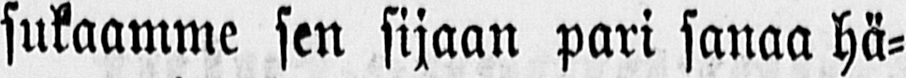sukaamme sen sijaan pari sanaa hä-
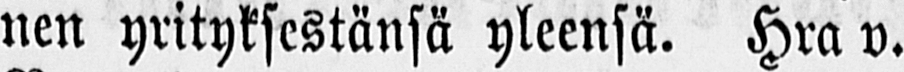nen yrityksestänsä yleensä. Hra v.
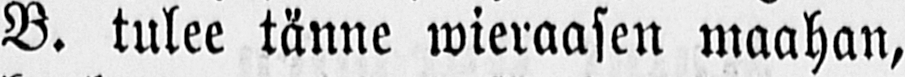B. tulee tänne wieraasen maahan,
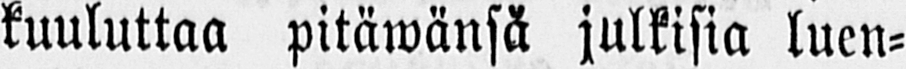kuuluttaa pitäwänsä julkisia luen-
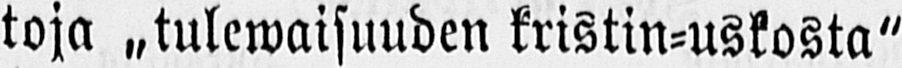toja „tulewaisuuden kristin-uskosta"
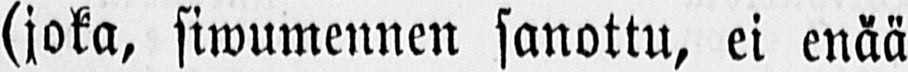(joka, siwumennen sanottu, ei enää
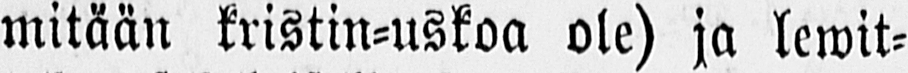mitään kristin-uskoa ole) ja lewit-
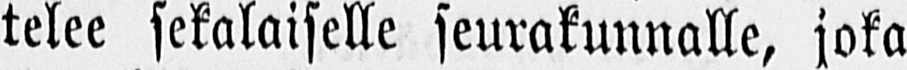telee sekalaiselle seurakunnalle, joka
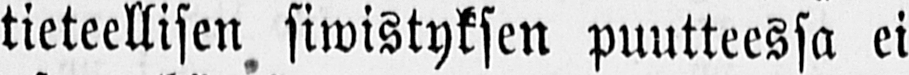tieteellisen, siwistyksen puutteessa ei
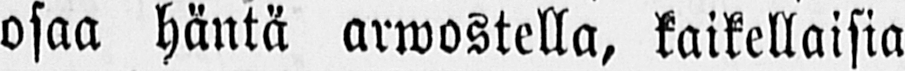osaa häntä arwostella, kaikellaisia
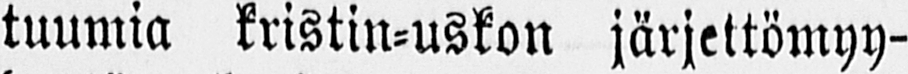tuumia kristin-uskon järjettömyy-
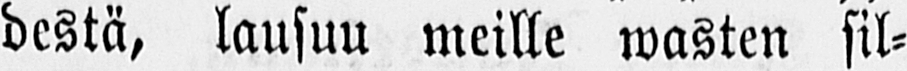destä, lausuu meille wasten sil-
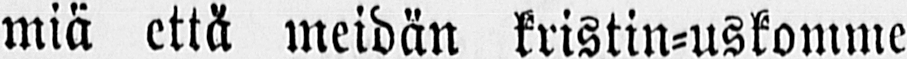miä että meidän kristin-uskomme
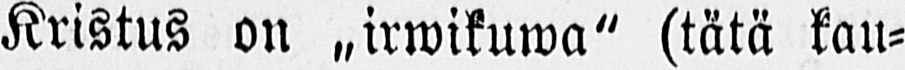Kristus on „irwikuwa" (tätä kau-
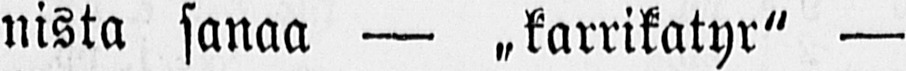nista sanaa — „karrikatyr" —
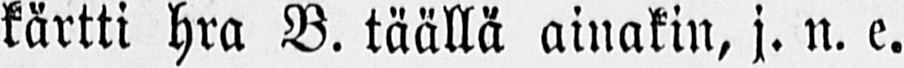kärtti hra B. täällä ainakin, j. n. e.
